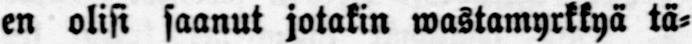en olisi saanut jotakin wastamyrkkyä tä-
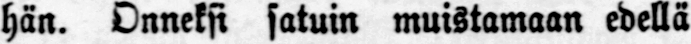hän. Onneksi satuin muistamaan edellä
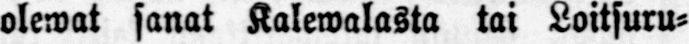olewat sanat Kalewalasta tai Loitsuru-
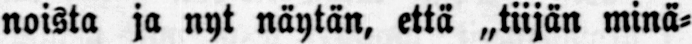noista ja nyt näytän, että „tiijän minä-
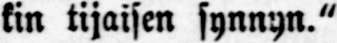kin tijaisen synnyn."
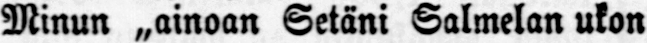Minun „ainoan Setäni Salmelan ukon
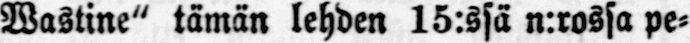Wastine" tämän lehden 15:ssä n:rossa pe-
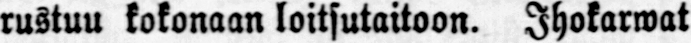rustuu kokonaan loitsutaitoon. Ihokarwat
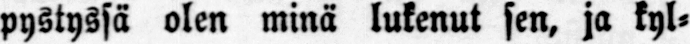pystyssä olen minä lukenut sen, ja kyl-
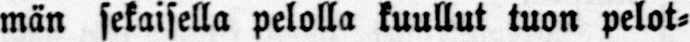män sekaisella pelolla kuullut tuon pelot-
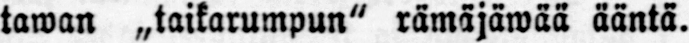tawan „taikarumpun" rämäjäwää ääntä.
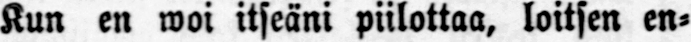Kun en woi itseäni piilottaa, loitsen en-
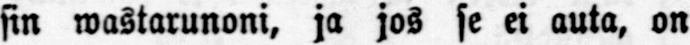sin wastarunoni, ja jos se ei auta, on
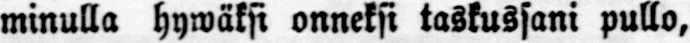minulla hywäksi onneksi taskussani pullo,
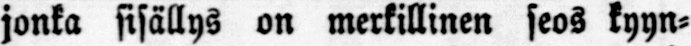jonka sisällys on merkillinen seos kyyn-
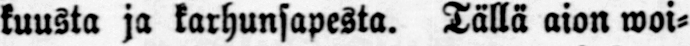kuusta ja karhunsapesta. Tällä aion woi-
